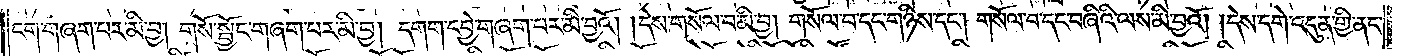ངག་གཞག་པར་མི་བྱ། གསོ་སྦྱོང་གཞག་པར་མི་བྱ། དགག་དབྱེ་གཞག་པར་མི་བྱའོ། །དེས་གསོལ་བ་མི་བྱ། གསོལ་བ་དང་གཉིས་དང༌། གསོལ་བ་དང་བཞིའི་ལས་མི་བྱའོ། །དེས་དགེ་འདུན་གྱི་ནང་
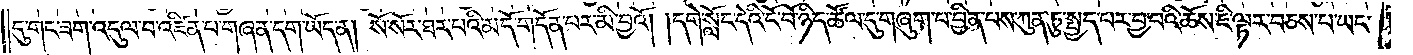དུ་གང་ཟག་འདུལ་བ་འཛིན་པ་གཞན་དག་ཡོད་ན། སོ་སོར་ཐར་པའི་མདོ་གདོན་པར་མི་བྱའོ། །དགེ་སློང་དེའི་ངོ་བོ་ཉིད་ཚོལ་དུ་གཞུག་པ་བྱིན་པས་ཀུན་ཏུ་སྤྱད་པར་བྱ་བའི་ཆོས་ཇི་ལྟར་བཅས་པ་ཡང་
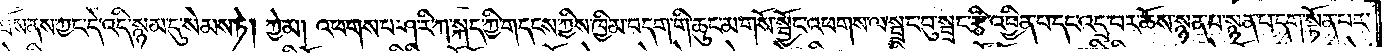ཐོས་ནས་ཀྱང་དེ་འདི་སྙམ་དུ་སེམས་ཏེ། ཀྱེ་མ། འཕགས་པ་ཤ་རི་ཀ་སྐད་ཀྱི་གདངས་ཀྱིས་ཁྱིམ་བདག་གི་ཆུང་མ་གསོ་སྦྱོང་འཕགས་ལ་སྦྲང་བུ་སྦྲང་རྩི་འབྱིན་པ་དང་འདྲ་བར་ཆོས་སྙན་པ་སྙན་པ་དག་སྟོན་པར་
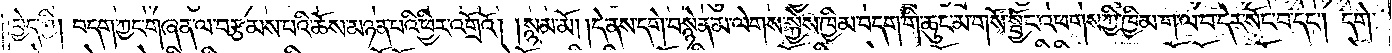བྱེད་ཀྱི། བདག་ཀྱང་གཞན་ལ་བརྩམས་པའི་ཆོས་མཉན་པའི་ཕྱིར་འགྲོའོ། །སྙམ་མོ། །དེ་ནས་དགེ་བསྙེན་མ་ལེགས་སྐྱེས་ཁྱིམ་བདག་གི་ཆུང་མ་གསོ་སྦྱོང་འཕགས་ཀྱི་ཁྱིམ་ག་ལ་བ་དེར་སོང་བ་དང༌། དགེ་
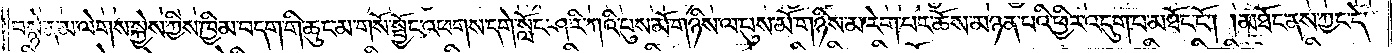བསྙེན་མ་ལེགས་སྐྱེས་ཀྱིས་ཁྱིམ་བདག་གི་ཆུང་མ་གསོ་སྦྱོང་འཕགས་དགེ་སློང་ཤ་རི་ཀའི་པུས་མོ་གཉིས་ལ་པུས་མོ་གཉིས་མ་རེག་པར་ཆོས་མཉན་པའི་ཕྱིར་འདུག་པ་མཐོང་ངོ༌། །མཐོང་ནས་ཀྱང་དེ་
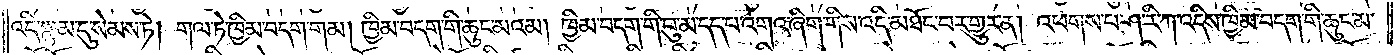འདི་སྙམ་དུ་སེམས་ཏེ། གལ་ཏེ་ཁྱིམ་བདག་གམ། ཁྱིམ་བདག་གི་ཆུང་མའམ། ཁྱིམ་བདག་གི་བུ་མ་དད་པ་འགའ་ཞིག་གིས་འདི་མཐོང་བར་གྱུར་ན། འཕགས་པ་ཤ་རི་ཀ་འདིས་ཁྱིམ་བདག་གི་ཆུང་མ་
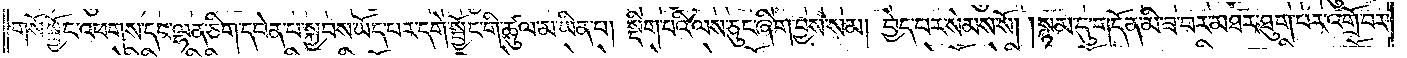གསོ་སྦྱོང་འཕགས་དང་ལྷན་ཅིག་དབེན་པ་སྐྱབས་ཡོད་པར་དགེ་སྦྱོང་གི་ཚུལ་མ་ཡིན་པ། སྡིག་པའི་ལས་ཅུང་ཞིག་བྱས་སམ། བྱེད་པར་སེམས་སོ། །སྙམ་དུ་གདོན་མི་ཟ་བར་མཐར་ཐུག་པར་འགྲོ་བར་
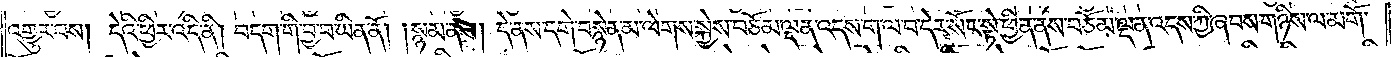འགྱུར་བས། དེའི་ཕྱིར་འདི་ནི། བདག་གི་བྱ་བ་ཡིན་ནོ། །སྙམ་ནས། དེ་ནས་དགེ་བསྙེན་མ་ལེགས་སྐྱེས་བཅོམ་ལྡན་འདས་ག་ལ་བ་དེར་སོང་སྟེ་ཕྱིན་ནས་བཅོམ་ལྡན་འདས་ཀྱི་ཞབས་གཉིས་ལ་མགོ་
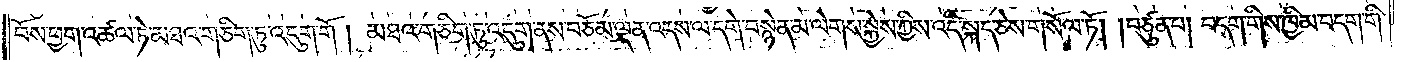བོས་ཕྱག་འཚལ་ཏེ་མཐའ་གཅིག་ཏུ་འདུག་གོ །མཐའ་གཅིག་ཏུ་འདུག་ནས་བཅོམ་ལྡན་འདས་ལ་དགེ་བསྙེན་མ་ལེགས་སྐྱེས་ཀྱིས་འདི་སྐད་ཅེས་གསོལ་ཏོ། །བཙུན་པ། བདག་གིས་ཁྱིམ་བདག་གི་
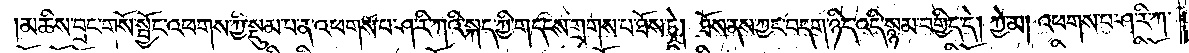མཆིས་བྲང་གསོ་སྦྱོང་འཕགས་ཀྱི་སྡུམ་པ་ན་འཕགས་པ་ཤ་རི་ཀའི་སྐད་ཀྱི་གདངས་གྲགས་པ་ཐོས་ཏེ། ཐོས་ནས་ཀྱང་བདག་ཉིད་འདི་སྙམ་བགྱིད་དེ། ཀྱེ་མ། འཕགས་པ་ཤ་རི་ཀ་
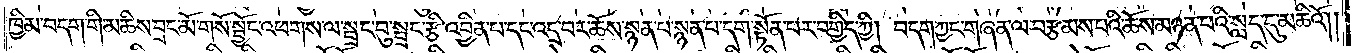ཁྱིམ་བདག་གི་མཆིས་བྲང་མོ་གསོ་སྦྱོང་འཕགས་ལ་སྦྲང་བུ་སྦྲང་རྩི་འབྱིན་པ་དང་འདྲ་བར་ཆོས་སྙན་པ་སྙན་པ་དག་སྟོན་པར་བགྱིད་ཀྱི། བདག་ཀྱང་གཞན་ལ་བརྩམས་པའི་ཆོས་མཉན་པའི་སླད་དུ་མཆིའོ། །
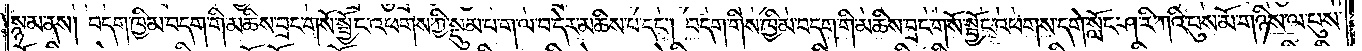སྙམ་ནས། བདག་ཁྱིམ་བདག་གི་མཆིས་བྲང་གསོ་སྦྱོང་འཕགས་ཀྱི་སྡུམ་པ་ག་ལ་བ་དེར་མཆིས་པ་དང༌། བདག་གིས་ཁྱིམ་བདག་གི་མཆིས་བྲང་གསོ་སྦྱོང་འཕགས་དགེ་སློང་ཤ་རི་ཀའི་པུས་མོ་གཉིས་ལ་པུས་
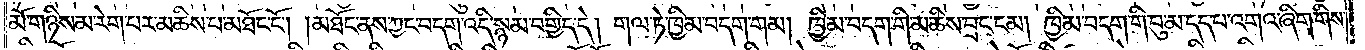མོ་གཉིས་མ་རེག་པར་མཆིས་པ་མཐོང་ངོ༌། །མཐོང་ནས་ཀྱང་བདག་འདི་སྙམ་བགྱིད་དེ། གལ་ཏེ་ཁྱིམ་བདག་གམ། ཁྱིམ་བདག་གི་མཆིས་བྲང་ངམ། ཁྱིམ་བདག་གི་བུ་མ་དད་པ་འགའ་ཞིག་གིས་
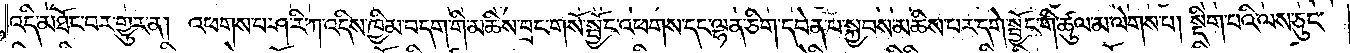འདི་མཐོང་བར་གྱུར་ན། འཕགས་པ་ཤ་རི་ཀ་འདིས་ཁྱིམ་བདག་གི་མཆིས་བྲང་གསོ་སྦྱོང་འཕགས་དང་ལྷན་ཅིག་དབེན་པ་སྐྱབས་མཆིས་པར་དགེ་སྦྱོང་གི་ཚུལ་མ་ལེགས་པ། སྡིག་པའི་ལས་ཅུང་
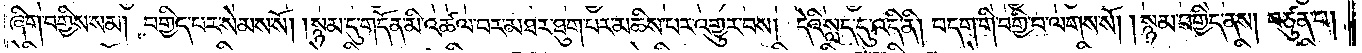ཞིག་བགྱིས་སམ། བགྱིད་པར་སེམས་སོ། །སྙམ་དུ་གདོན་མི་འཚལ་བར་མཐར་ཐུག་པར་མཆིས་པར་འགྱུར་བས། དེའི་སླད་དུ་འདི་ནི། བདག་གི་བགྱི་བ་ལགས་སོ། །སྙམ་བགྱིད་ནས། བཙུན་པ།
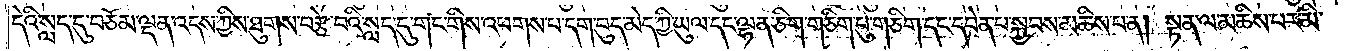དེའི་སླད་དུ་བཅོམ་ལྡན་འདས་ཀྱིས་ཐུགས་བརྩེ་བའི་སླད་དུ་གང་གིས་འཕགས་པ་དག་བུད་མེད་ཀྱི་ཡུལ་དང་ལྷན་ཅིག་གཅིག་པུ་གཅིག་དང་དབེན་པ་སྐྱབས་མཆིས་པ་ན། སྟན་ལ་མཆིས་པར་མི་
